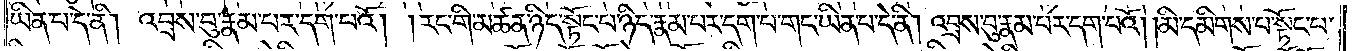ཡིན་པ་དེ་ནི། འབྲས་བུ་རྣམ་པར་དག་པའོ། །རང་གི་མཚན་ཉིད་སྟོང་པ་ཉིད་རྣམ་པར་དག་པ་གང་ཡིན་པ་དེ་ནི། འབྲས་བུ་རྣམ་པར་དག་པའོ། །མི་དམིགས་པ་སྟོང་པ་
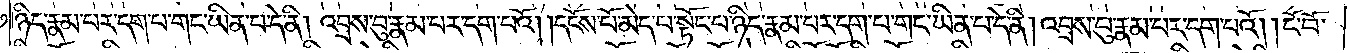ཉིད་རྣམ་པར་དག་པ་གང་ཡིན་པ་དེ་ནི། འབྲས་བུ་རྣམ་པར་དག་པའོ། །དངོས་པོ་མེད་པ་སྟོང་པ་ཉིད་རྣམ་པར་དག་པ་གང་ཡིན་པ་དེ་ནི། འབྲས་བུ་རྣམ་པར་དག་པའོ། །ངོ་བོ་
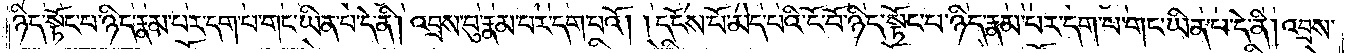ཉིད་སྟོང་པ་ཉིད་རྣམ་པར་དག་པ་གང་ཡིན་པ་དེ་ནི། འབྲས་བུ་རྣམ་པར་དག་པའོ། །དངོས་པོ་མེད་པའི་ངོ་བོ་ཉིད་སྟོང་པ་ཉིད་རྣམ་པར་དག་པ་གང་ཡིན་པ་དེ་ནི། འབྲས་
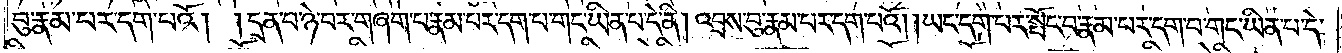བུ་རྣམ་པར་དག་པའོ། །དྲན་པ་ཉེ་བར་གཞག་པ་རྣམ་པར་དག་པ་གང་ཡིན་པ་དེ་ནི། འབྲས་བུ་རྣམ་པར་དག་པའོ། །ཡང་དག་པར་སྤོང་བ་རྣམ་པར་དག་པ་གང་ཡིན་པ་དེ་
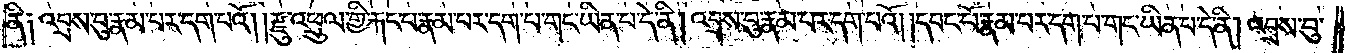ནི༑ འབྲས་བུ་རྣམ་པར་དག་པའོ། །རྫུ་འཕྲུལ་གྱི་རྐང་པ་རྣམ་པར་དག་པ་གང་ཡིན་པ་དེ་ནི། འབྲས་བུ་རྣམ་པར་དག་པའོ། །དབང་པོ་རྣམ་པར་དག་པ་གང་ཡིན་པ་དེ་ནི། འབྲས་བུ་
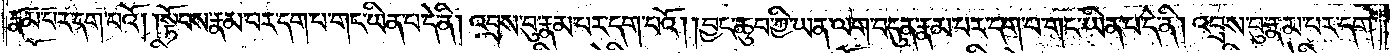རྣམ་པར་དག་པའོ། །སྟོབས་རྣམ་པར་དག་པ་གང་ཡིན་པ་དེ་ནི། འབྲས་བུ་རྣམ་པར་དག་པའོ། །བྱང་ཆུབ་ཀྱི་ཡན་ལག་བདུན་རྣམ་པར་དག་པ་གང་ཡིན་པ་དེ་ནི། འབྲས་བུ་རྣམ་པར་དག་
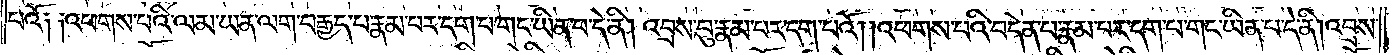པའོ༑ ༑འཕགས་པའི་ལམ་ཡན་ལག་བརྒྱད་པ་རྣམ་པར་དག་པ་གང་ཡིན་པ་དེ་ནི། འབྲས་བུ་རྣམ་པར་དག་པའོ། །འཕགས་པའི་བདེན་པ་རྣམ་པར་དག་པ་གང་ཡིན་པ་དེ་ནི། འབྲས་
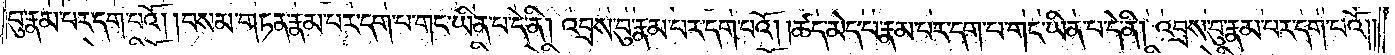བུ་རྣམ་པར་དག་པའོ། །བསམ་གཏན་རྣམ་པར་དག་པ་གང་ཡིན་པ་དེ་ནི། འབྲས་བུ་རྣམ་པར་དག་པའོ། །ཚད་མེད་པ་རྣམ་པར་དག་པ་གང་ཡིན་པ་དེ་ནི། འབྲས་བུ་རྣམ་པར་དག་པའོ། །
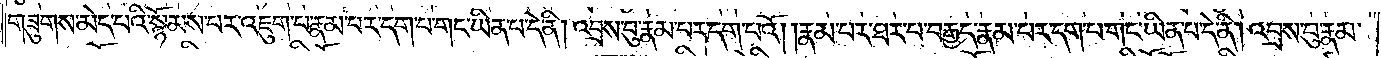གཟུགས་མེད་པའི་སྙོམས་པར་འཇུག་པ་རྣམ་པར་དག་པ་གང་ཡིན་པ་དེ་ནི། འབྲས་བུ་རྣམ་པར་དག་པའོ། །རྣམ་པར་ཐར་པ་བརྒྱད་རྣམ་པར་དག་པ་གང་ཡིན་པ་དེ་ནི། འབྲས་བུ་རྣམ་
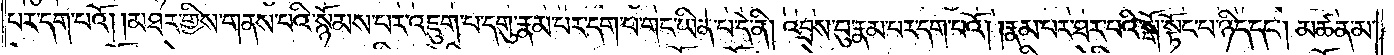པར་དག་པའོ། །མཐར་གྱིས་གནས་པའི་སྙོམས་པར་འཇུག་པ་དགུ་རྣམ་པར་དག་པ་གང་ཡིན་པ་དེ་ནི། འབྲས་བུ་རྣམ་པར་དག་པའོ། །རྣམ་པར་ཐར་པའི་སྒོ་སྟོང་པ་ཉིད་དང༌། མཚན་མ་
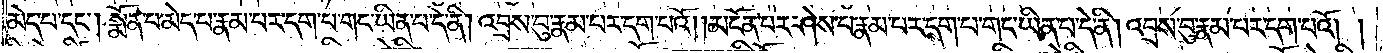མེད་པ་དང༌། སྨོན་པ་མེད་པ་རྣམ་པར་དག་པ་གང་ཡིན་པ་དེ་ནི། འབྲས་བུ་རྣམ་པར་དག་པའོ། །མངོན་པར་ཤེས་པ་རྣམ་པར་དག་པ་གང་ཡིན་པ་དེ་ནི། འབྲས་བུ་རྣམ་པར་དག་པའོ། །
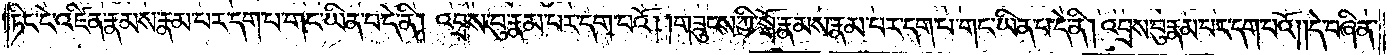ཏིང་ངེ་འཛིན་རྣམས་རྣམ་པར་དག་པ་གང་ཡིན་པ་དེ་ནི། འབྲས་བུ་རྣམ་པར་དག་པའོ། །གཟུངས་ཀྱི་སྒོ་རྣམས་རྣམ་པར་དག་པ་གང་ཡིན་པ་དེ་ནི། འབྲས་བུ་རྣམ་པར་དག་པའོ། །དེ་བཞིན་
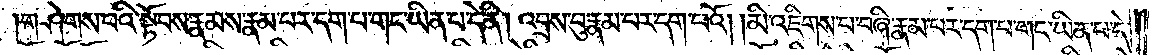གཤེགས་པའི་སྟོབས་རྣམས་རྣམ་པར་དག་པ་གང་ཡིན་པ་དེ་ནི། འབྲས་བུ་རྣམ་པར་དག་པའོ། །མི་འཇིགས་པ་བཞི་རྣམ་པར་དག་པ་གང་ཡིན་པ་དེ་
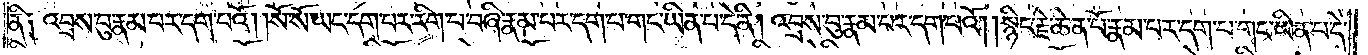ནི༑ འབྲས་བུ་རྣམ་པར་དག་པའོ། །སོ་སོ་ཡང་དག་པར་རིག་པ་བཞི་རྣམ་པར་དག་པ་གང་ཡིན་པ་དེ་ནི། འབྲས་བུ་རྣམ་པར་དག་པའོ། །སྙིང་རྗེ་ཆེན་པོ་རྣམ་པར་དག་པ་གང་ཡིན་པ་དེ་
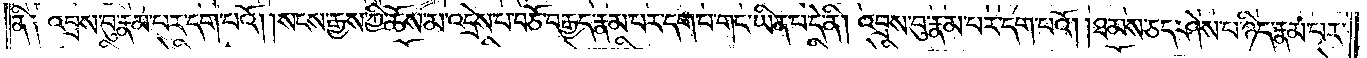ནི༑ འབྲས་བུ་རྣམ་པར་དག་པའོ། །སངས་རྒྱས་ཀྱི་ཆོས་མ་འདྲེས་པ་བཅོ་བརྒྱད་རྣམ་པར་དག་པ་གང་ཡིན་པ་དེ་ནི། འབྲས་བུ་རྣམ་པར་དག་པའོ། །ཐམས་ཅད་ཤེས་པ་ཉིད་རྣམ་པར་
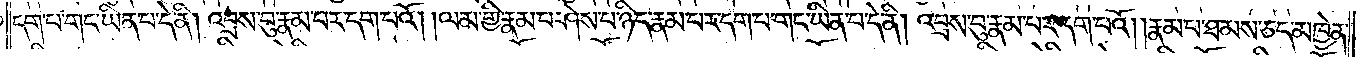དག་པ་གང་ཡིན་པ་དེ་ནི། འབྲས་བུ་རྣམ་པར་དག་པའོ། །ལམ་གྱི་རྣམ་པ་ཤེས་པ་ཉིད་རྣམ་པར་དག་པ་གང་ཡིན་པ་དེ་ནི། འབྲས་བུ་རྣམ་པར་དག་པའོ། །རྣམ་པ་ཐམས་ཅད་མཁྱེན་
